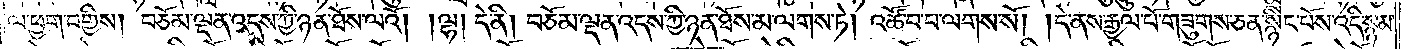ལ་ཕྱག་བགྱིས། བཅོམ་ལྡན་འདས་ཀྱི་ཉན་ཐོས་ལའོ། །ལྷ། དེ་ནི། བཅོམ་ལྡན་འདས་ཀྱི་ཉན་ཐོས་མ་ལགས་ཏེ། འཚོ་བ་པ་ལགས་སོ། །དེ་ནས་རྒྱལ་པོ་གཟུགས་ཅན་སྙིང་པོས་འདི་སྙམ་
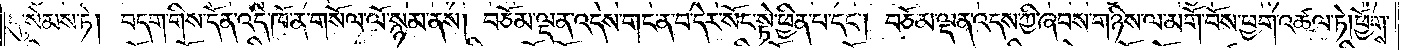དུ་སེམས་ཏེ། བདག་གིས་དོན་འདི་ཁོ་ན་གསོལ་ལོ་སྙམ་ནས། བཅོམ་ལྡན་འདས་གང་ན་པ་དེར་སོང་སྟེ་ཕྱིན་པ་དང༌། བཅོམ་ལྡན་འདས་ཀྱི་ཞབས་གཉིས་ལ་མགོ་བོས་ཕྱག་འཚལ་ཏེ། ཕྱོགས་
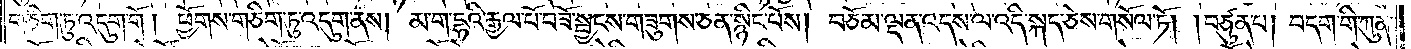གཅིག་ཏུ་འདུག་གོ། ཕྱོགས་གཅིག་ཏུ་འདུག་ནས། མ་ག་དྷའི་རྒྱལ་པོ་བཟོ་སྦྱངས་གཟུགས་ཅན་སྙིང་པོས། བཅོམ་ལྡན་འདས་ལ་འདི་སྐད་ཅེས་གསོལ་ཏོ། །བཙུན་པ། བདག་གི་ཀུན་
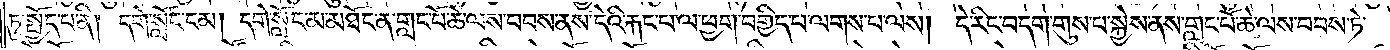ཏུ་སྤྱོད་པ་ནི། དགེ་སློང་ངམ། དགེ་སློང་མ་མཐོང་ན་གླང་པོ་ཆེ་ལས་བབས་ནས་དེའི་རྐང་པ་ལ་ཕྱག་བགྱིད་པ་ལགས་པ་ལས། དེ་རིང་བདག་གུས་པ་སྐྱེས་ནས་གླང་པོ་ཆེ་ལས་བབས་ཏེ་
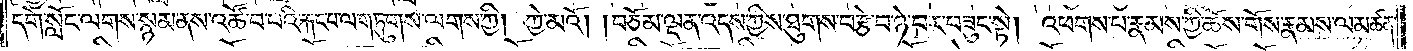དགེ་སློང་ལགས་སྙམ་ནས་འཚོ་བ་པའི་རྐང་པ་ལ་གཏུགས་ལགས་ཀྱི། ཀྱེ་མའོ། །བཅོམ་ལྡན་འདས་ཀྱིས་ཐུགས་བརྩེ་བ་ཉེ་བར་བཟུང་སྟེ། འཕགས་པ་རྣམས་ཀྱི་ཆོས་གོས་རྣམས་ལ་མཚན་
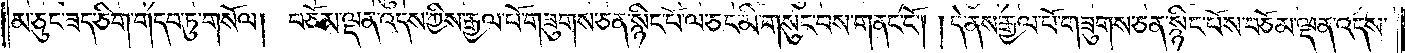མ་ཅུང་ཟད་ཅིག་གདབ་ཏུ་གསོལ། བཅོམ་ལྡན་འདས་ཀྱིས་རྒྱལ་པོ་གཟུགས་ཅན་སྙིང་པོ་ལ་ཅང་མི་གསུང་བས་གནང་ངོ༌། །དེ་ནས་རྒྱལ་པོ་གཟུགས་ཅན་སྙིང་པོས་བཅོམ་ལྡན་འདས་
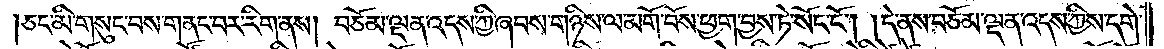།ཅང་མི་གསུང་བས་གནང་བར་རིག་ནས། བཅོམ་ལྡན་འདས་ཀྱི་ཞབས་གཉིས་ལ་མགོ་བོས་ཕྱག་བྱས་ཏེ་སོང་ངོ༌། །དེ་ནས་བཅོམ་ལྡན་འདས་ཀྱིས་དགེ་
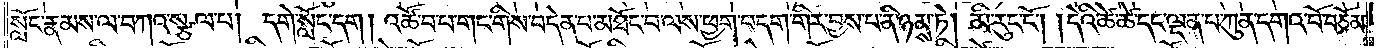སློང་རྣམས་ལ་བཀའ་སྩལ་པ། དགེ་སློང་དག། འཚོ་བ་པ་གང་གིས་བདེན་པ་མཐོང་བ་ལས་ཕྱག་བདག་གིར་བྱས་པ་ནི་ཉམས་ཏེ། མི་རུང་ངོ༌། །དེའི་ཚེ་ཚེ་དང་ལྡན་པ་ཀུན་དགའ་བོ་བཅོམ་
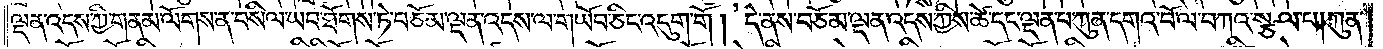ལྡན་འདས་ཀྱི་གནམ་ལོགས་ན་བསིལ་ཡབ་ཐོགས་ཏེ་བཅོམ་ལྡན་འདས་ལ་གཡོབ་ཅིང་འདུག་གོ། དེ་ནས་བཅོམ་ལྡན་འདས་ཀྱིས་ཚེ་དང་ལྡན་པ་ཀུན་དགའ་བོ་ལ་བཀའ་སྩལ་པ། ཀུན་
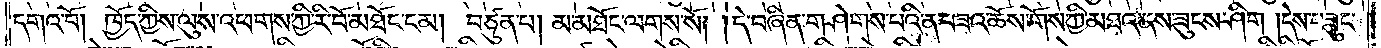དགའ་བོ། ཁྱོད་ཀྱིས་ལུས་འཕགས་ཀྱི་རི་བོ་མཐོང་ངམ། བཙུན་པ། མ་མཐོང་ལགས་སོ། །དེ་བཞིན་གཤེགས་པའི་ན་བཟའ་ཆོས་གོས་ཀྱི་མཐའ་ནས་ཟུངས་ཤིག། དེས་བཟུང་
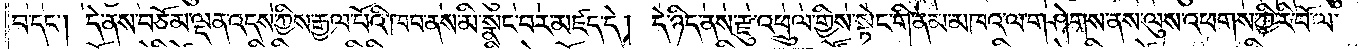བ་དང༌། དེ་ནས་བཅོམ་ལྡན་འདས་ཀྱིས་རྒྱལ་པོའི་ཁབ་ནས་མི་སྣང་བར་མཛད་དེ། དེ་ཉིད་ནས་རྫུ་འཕྲུལ་གྱིས་སྟེང་གི་ནམ་མཁའ་ལ་གཤེགས་ནས་ལུས་འཕགས་ཀྱི་རི་བོ་ལ་
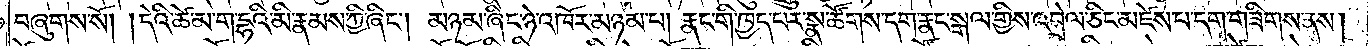བཞུགས་སོ། །དེའི་ཚེ་མ་ག་དྷའི་མི་རྣམས་ཀྱི་ཞིང༌། མཉམ་ཞིང་ཉེ་འཁོར་མཉམ་པ། རྣང་གི་ཁྱད་པར་སྣ་ཚོགས་དག་རྣང་སྒལ་གྱིས་འབྲེལ་ཅིང་མཛེས་པ་དག་གཟིགས་ནས།
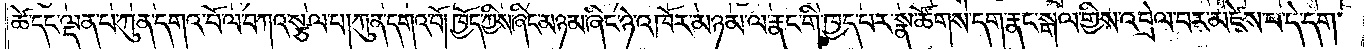ཚེ་དང་ལྡན་པ་ཀུན་དགའ་བོ་ལ་བཀའ་སྩལ་པ། ཀུན་དགའ་བོ། ཁྱོད་ཀྱིས་ཞིང་མཉམ་ཞིང་ཉེ་འཁོར་མཉམ་ལ་རྣང་གི་ཁྱད་པར་སྣ་ཚོགས་དག་རྣང་སྒལ་གྱིས་འབྲེལ་བར་མཛེས་པ་དེ་དག་
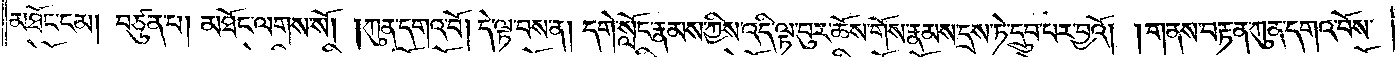མཐོང་ངམ། བཙུན་པ། མཐོང་ལགས་སོ། །ཀུན་དགའ་བོ། དེ་ལྟ་བས་ན། དགེ་སློང་རྣམས་ཀྱིས་འདི་ལྟ་བུར་ཆོས་གོས་རྣམས་དྲས་ཏེ་དྲུབ་པར་བྱའོ། །གནས་བརྟན་ཀུན་དགའ་བོས་
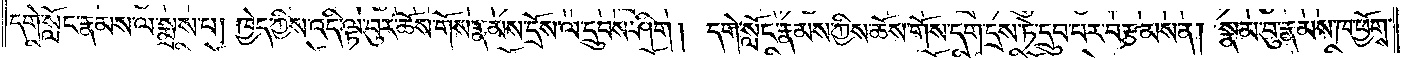དགེ་སློང་རྣམས་ལ་སྨྲས་པ། ཁྱེད་ཀྱིས་འདི་ལྟ་བུར་ཆོས་གོས་རྣམས་དྲོས་ལ་དྲུབས་ཤིག། དགེ་སློང་རྣམས་ཀྱིས་ཆོས་གོས་དག་དྲས་ཏེ་དྲུབ་པར་བརྩམས་ན། སྣམ་བུ་རྣམས་ཁ་ཕྱོགས་
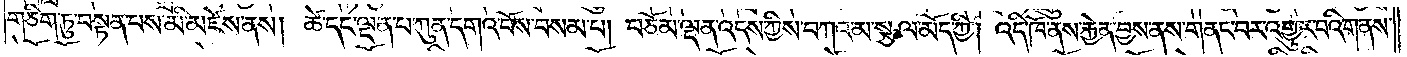གཅིག་ཏུ་བསྟན་པས་མི་མཛེས་ནས། ཚེ་དང་ལྡན་པ་ཀུན་དགའ་བོས་བསམ་པ། བཅོམ་ལྡན་འདས་ཀྱིས་བཀའ་མ་སྩལ་མོད་ཀྱི། འདི་ཁོ་ནས་རྐྱེན་བྱས་ནས་གནང་བར་འགྱུར་བའི་གནས་
